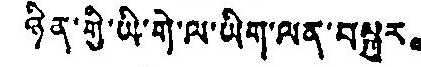ཉིན་གྱི་ཡི་གེ་ལ་ཡིག་ལན་བསྐུར。
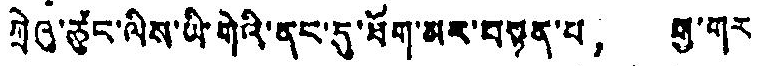ཀྲེའུ་ཙུང་ལིས་ཡི་གེའི་ནང་དུ་ཐོག་མར་བསྟན་པ， རྒྱ་གར
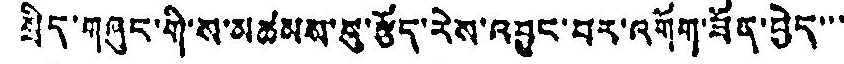སྲིད་གཞུང་གི་ས་མཚམས་སུ་རྩོད་རེས་འབྱུང་བར་འགོག་ཟོན་བྱེད་་་་
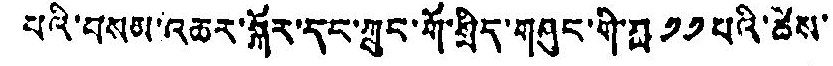པའི་བསམ་འཆར་སྐོར་དང་ཀྲུང་གོ་སྲིད་གཞུང་གི་ཐླ ༡༡ པའི་ཚེས་
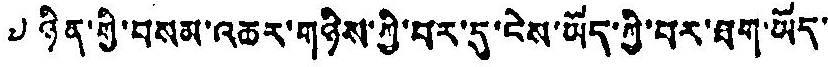༧ ཉིན་གྱི་བསམ་འཆར་གཉིས་ཀྱི་བར་དུ་ངེས་ཡོད་ཀྱི་བར་ཐག་ཡོད་
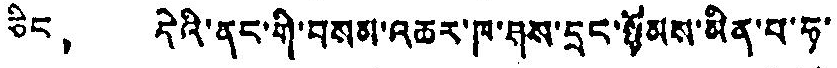ཅིང， དེའི་ནང་གི་བསམ་འཆར་ཁ་ཤས་དྲང་སྙོམས་མིན་པ་ཧ་
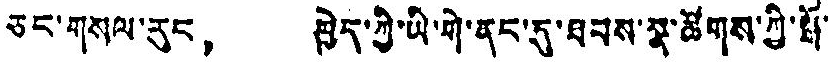ཅང་གསལ་རུང， ཁྱེད་ཀྱི་ཡི་གེ་ནང་དུ་ཐབས་སྣ་ཚོགས་ཀྱི་སྤོ་
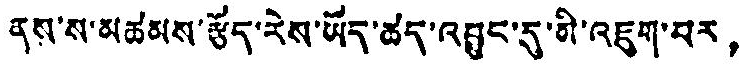ནས་ས་མཚམས་རྩོད་རེས་ཡོད་ཚད་འབྱུང་དུ་མི་འཇུག་པར，
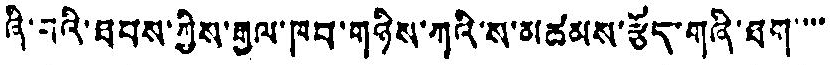ཞི་བའི་ཐབས་ཀྱིས་རྒྱལ་ཁབ་གཉིས་ཀའི་ས་མཚམས་རྩོད་གཞི་ཐག་་་་
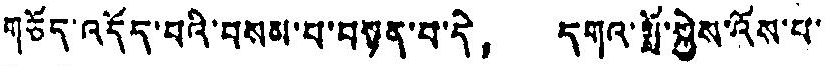གཅོད་འདོད་པའི་བསམ་པ་བསྟན་པ་དེ， དགའ་སྤྲོ་སྐྱེས་འོས་པ་
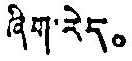ཞིག་རེད。
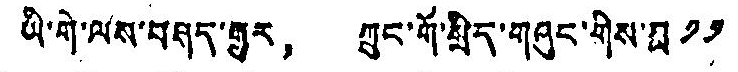ཡི་གེ་ལས་བཤད་རྒྱུར， ཀྲུང་གོ་སྲིད་གཞུང་གིས་ཐླ ༡༡
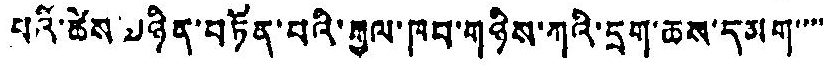པའི་ཚེས ༧ ཉིན་བཏོན་པའི་རྒྱལ་ཁབ་གཉིས་ཀའི་དྲག་ཆས་དམག་་་་
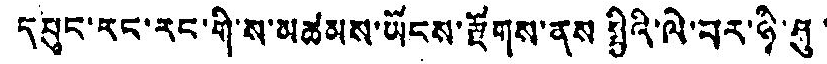དཔུང་རང་རང་གི་ས་མཚམས་ཡོངས་རྫོགས་ནས སྤྱིའི་ལེ་བར་ཉི་ཤུ་་
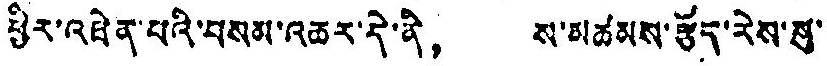ཕྱིར་འཐེན་པའི་བསམ་འཆར་དེ་ནི， ས་མཚམས་རྩོད་རེས་སུ་
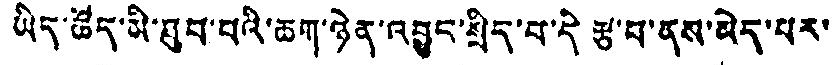ཡིད་ཚོད་མི་ཐུབ་པའི་ཆག་ཉེན་འབྱུང་སྲིད་པ་དེ རྩ་བ་ནས་མེད་པར་
